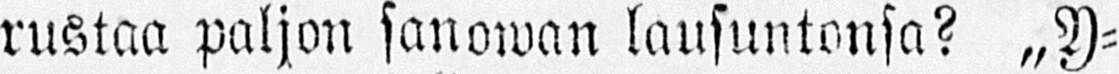rustaa paljon sanowan lausuntonsa? „Y-
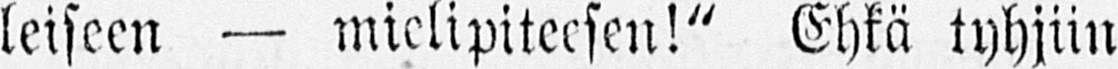leiseen — mielipiteesen!" Ehkä tyhjiin
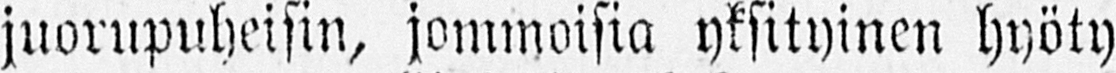juorupuheisin, jommoisia yksityinen hyöty
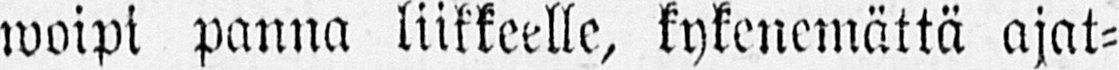woipi panna liikkeelle, kykenemättä ajat-
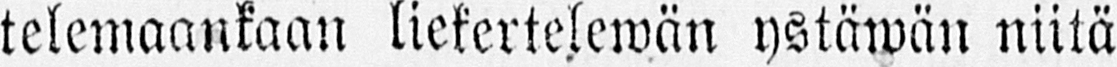telemaankaan liekertelewän ystäwän niitä
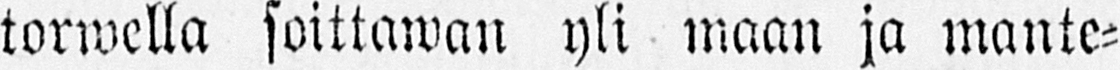torwella soittawan yli maan ja mante-
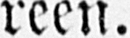reen.
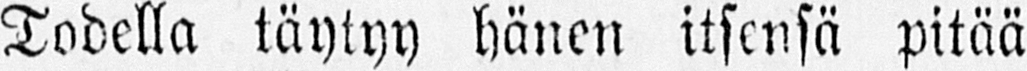Todella täytyy hänen itsensä pitää
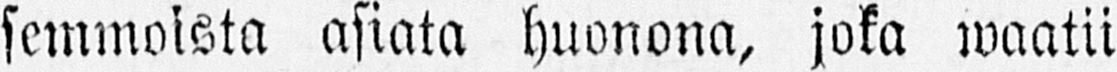semmoista asiata huonona, joka waatii
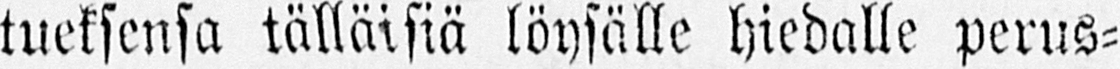tueksensa tälläisiä löysälle hiedalle perus-
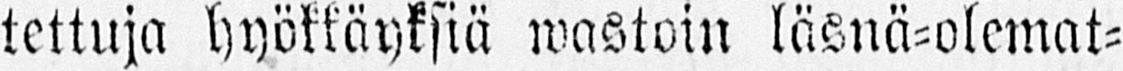tettuja hyökkäyksiä wastoin läsnä-olemat-
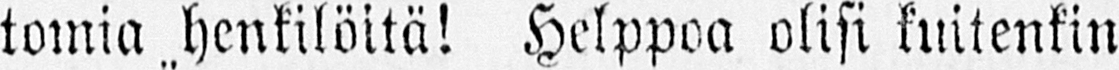tomia henkilöitä! Helppoa olisi kuitenkin
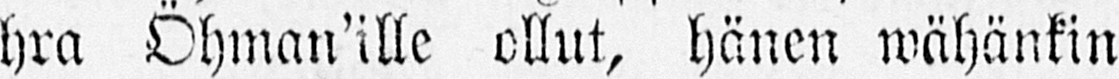hra Öhman'ille ollut, hänen wähänkin
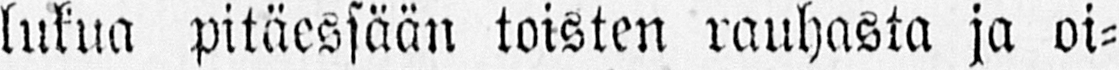lukua pitäessään toisten rauhasta ja oi-
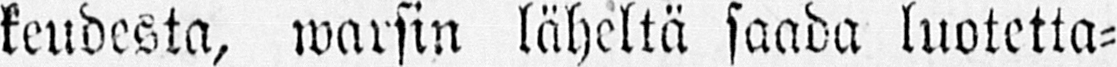keudesta, warsin läheltä saada luotetta-
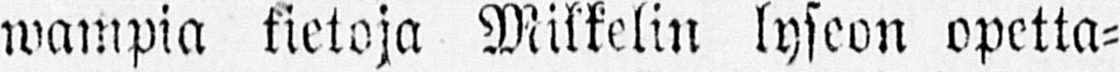wampia tietoja Mikkelin lyseon opetta-
